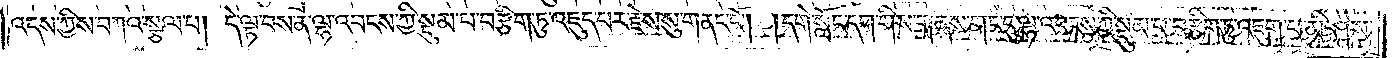འདས་ཀྱིས་བཀའ་སྩལ་པ། དེ་ལྟ་བས་ན་ལྷ་འབངས་ཀྱི་སྡུམ་པ་བརྩིག་ཏུ་འཇུད་པར་རྗེས་སུ་གནང་ངོ༌། །དགེ་སློང་དག་གིས་གནས་གང་དུ་ལྷ་འབངས་ཀྱི་སྡུམ་པ་བརྩིག་ཏུ་འཇུག་པ་མི་ཤེས་
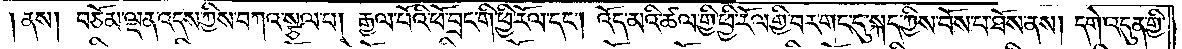ནས། བཅོམ་ལྡན་འདས་ཀྱིས་བཀའ་སྩལ་པ། རྒྱལ་པོའི་ཕོ་བྲང་གི་ཕྱི་རོལ་དང༌། འོད་མའི་ཚལ་གྱི་ཕྱི་རོལ་གྱི་བར་གང་དུ་སྐད་ཀྱིས་བོས་པ་ཐོས་ནས། དགེ་འདུན་གྱི་
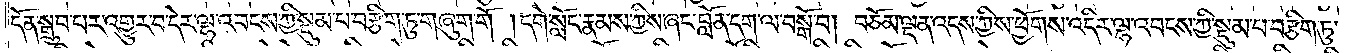དོན་སྒྲུབ་པར་འགྱུར་བ་དེར་ལྷ་འབངས་ཀྱི་སྡུམ་པ་བརྩིག་ཏུ་གཞུག་གོ །དགེ་སློང་རྣམས་ཀྱིས་ཞང་བློན་དག་ལ་བསྒོ་བ། བཅོམ་ལྡན་འདས་ཀྱིས་ཕྱོགས་འདིར་ལྷ་འབངས་ཀྱི་སྡུམ་པ་བརྩིག་ཏུ་
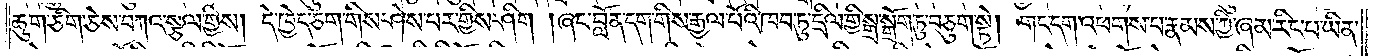ཆུག་ཅིག་ཅེས་བཀའ་སྩལ་གྱིས། དེ་ཁྱེད་ཅག་གིས་ཤེས་པར་གྱིས་ཤིག །ཞང་བློན་དག་གིས་རྒྱལ་པོའི་ཁབ་ཏུ་དྲིལ་གྱི་སྒྲ་སྒྲོག་ཏུ་བཅུག་སྟེ། གང་དག་འཕགས་པ་རྣམས་ཀྱི་ཞམ་རིང་པ་ཡིན་
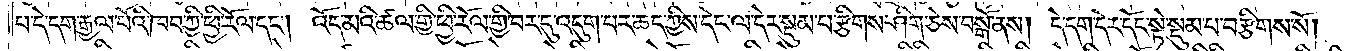པ་དེ་དག་རྒྱལ་པོའི་ཁབ་ཀྱི་ཕྱི་རོལ་དང༌། འོད་མའི་ཚལ་གྱི་ཕྱི་རོལ་གྱི་བར་དུ་འདུག་པར་ཆད་ཀྱིས་དེང་ལ་དེར་སྡུམ་པ་རྩིགས་ཤིག་ཅེས་བསྒོ་ནས། དེ་དག་དེར་དོང་སྟེ་སྡུམ་པ་བརྩིགས་སོ། །
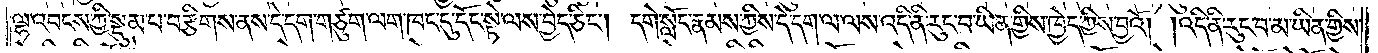ལྷ་འབངས་ཀྱི་སྡུམ་པ་བརྩིགས་ནས་དེ་དག་གཙུག་ལག་ཁང་དུ་དོང་སྟེ་ལས་བྱེད་ཅིང༌། དགེ་སློང་རྣམས་ཀྱིས་དེ་དག་ལ་ལས་འདི་ནི་རུང་བ་ཡིན་གྱིས་ཁྱེད་ཀྱིས་བྱའོ། །འདི་ནི་རུང་བ་མ་ཡིན་གྱིས་
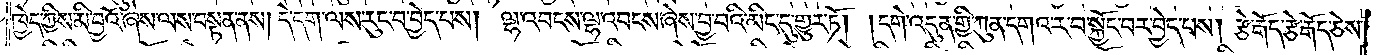ཁྱེད་ཀྱིས་མི་བྱའོ་ཞེས་ལས་བསྟན་ནས། དེ་དག་ལས་རུང་བ་བྱེད་པས། ལྷ་འབངས་ལྷ་འབངས་ཞེས་བྱ་བའི་མིང་དུ་གྱུར་ཏོ། །དགེ་འདུན་གྱི་ཀུན་དགའ་ར་བ་སྐྱོང་བར་བྱེད་པས། རྩེ་རྒོད་རྩེ་རྒོད་ཅེས་
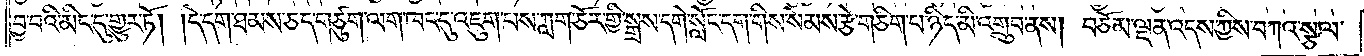བྱ་བའི་མིང་དུ་གྱུར་ཏོ། །དེ་དག་ཐམས་ཅད་གཙུག་ལག་ཁང་དུ་འཇུག་པས་ཀླག་ཅོར་གྱི་སྒྲས་དགེ་སློང་དག་གིས་སེམས་རྩེ་གཅིག་པ་ཉིད་མི་འགྲུབ་ནས། བཅོམ་ལྡན་འདས་ཀྱིས་བཀའ་སྩལ་
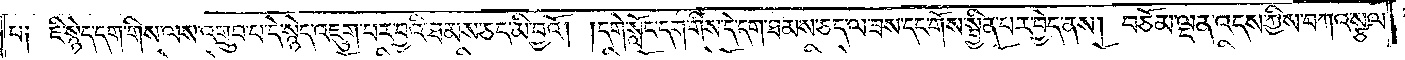པ༑ ཇི་སྙེད་དག་གིས་ལས་འགྲུབ་པ་དེ་སྙེད་འཇུག་པར་བྱའི་ཐམས་ཅད་མི་བྱའོ། །དགེ་སློང་དག་གིས་དེ་དག་ཐམས་ཅད་ལ་ཟས་དང་གོས་སྦྱིན་པར་བྱེད་ནས། བཅོམ་ལྡན་འདས་ཀྱིས་བཀའ་སྩལ་
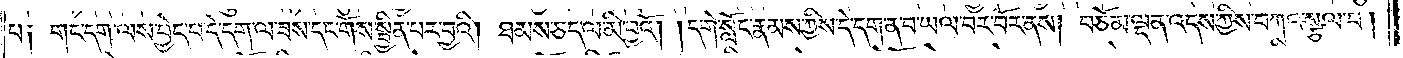པ༑ གང་དག་ལས་བྱེད་པ་དེ་དག་ལ་ཟས་དང་གོས་སྦྱིན་པར་བྱའི། །ཐམས་ཅད་ལ་མི་བྱའོ། །དགེ་སློང་རྣམས་ཀྱིས་དེ་དག་ན་བ་ཡལ་བར་བོར་ནས། བཅོམ་ལྡན་འདས་ཀྱིས་བཀའ་སྩལ་པ།
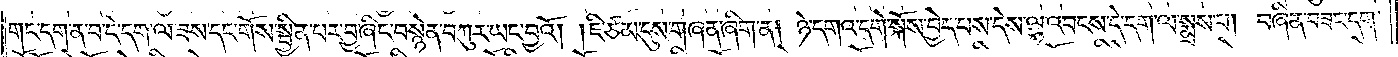གང་དག་ན་བ་དེ་དག་ལ་ཟས་དང་གོས་སྦྱིན་པར་བྱ་ཞིང་བསྙེན་བཀུར་ཡང་བྱའོ། །ཇི་ཙམ་དུས་གཞན་ཞིག་ན། ཉེ་དགའ་དགེ་སྐོས་བྱེད་པས་དེས་ལྷ་འབངས་དེ་དག་ལ་སྨྲས་པ། བཞིན་བཟང་དག་
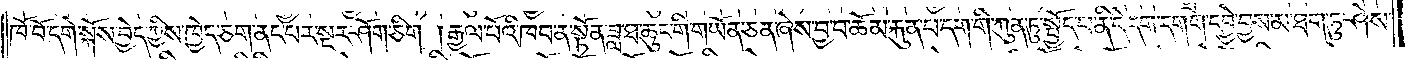ཁོ་བོ་དགེ་སྐོས་བྱེད་ཀྱིས་ཁྱེད་ཅག་ནང་པར་སྔར་ཤོག་ཅིག །རྒྱལ་པོའི་ཁབ་ན་སྟོན་ཟླ་ཐ་ཆུང་གི་གཡོན་ཅན་ཞེས་བྱ་བ་ཆོམ་རྐུན་པ་དག་གི་ཀུན་ཏུ་སྤྱོད་པ་ནི་དེ་དག་དགག་དབྱེ་བྱས་མ་ཐག་ཏུ་ཤེས་
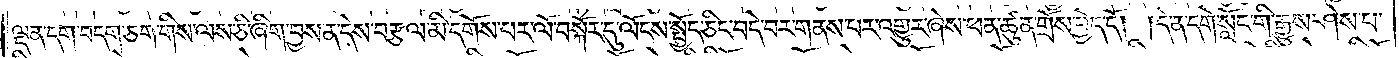ལྡན་དག་བདག་ཅག་གིས་ལས་ཅི་ཞིག་བྱས་ན་དེས་བརྩལ་མི་དགོས་པར་ལོ་བསྐོར་དུ་ལོངས་སྤྱོད་ཅིང་བདེ་བར་གནས་པར་འགྱུར་ཞེས་ཕན་ཚུན་གྲོས་བྱེད་དོ། །དེ་ན་དགེ་སློང་གི་རྒྱུས་ཤེས་པ་
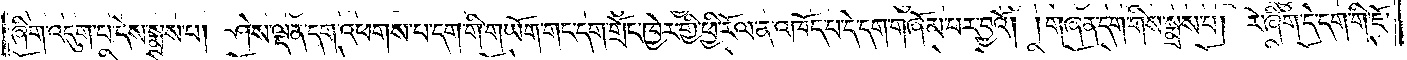ཞིག་འདུག་པ་དེས་སྨྲས་པ། ཤེས་ལྡན་དག་འཕགས་པ་དག་གི་གཡོག་གང་དག་གྲོང་ཁྱེར་གྱི་ཕྱི་རོལ་ན་འཁོད་པ་དེ་དག་གཞོམ་པར་བྱའོ། །གཞན་དག་གིས་སྨྲས་པ། རེ་ཞིག་དེ་དག་གི་ཇོ་
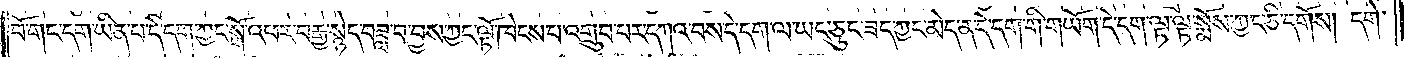བོ་གང་དག་ཡིན་པ་དེ་དག་ཀྱང་སྒོ་འཕར་བརྒྱ་སྙེད་བཟླ་བ་བྱས་ཀྱང་ལྟོ་ཁེངས་པ་འགྲུབ་པར་དཀའ་བས་དེ་དག་ལ་ཡང་ཅུང་ཟད་ཀྱང་མེད་ན་དེ་དག་གི་གཡོག་དེ་དག་ལྟ་ལྟ་སྨོས་ཀྱང་ཅི་དགོས། དགེ་
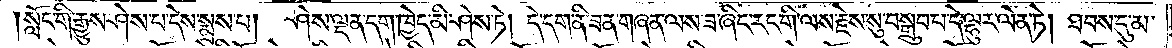སློང་གི་རྒྱུས་ཤེས་པ་དེས་སྨྲས་པ། ཤེས་ལྡན་དག་ཁྱེད་མི་ཤེས་ཏེ། དེ་དག་ནི་ཟན་གཞན་ལས་ཟ་ཞིང་རང་གི་ལས་རྗེས་སུ་བསྒྲུབ་པ་དེ་ལྷུར་ལེན་ཏེ། ཐབས་དུ་མ་
